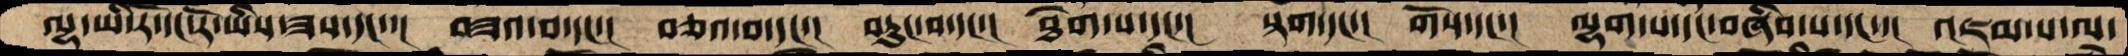ལྷ་ཡི་རོ་དང་རོ་ཡིས་ཟས་དང་་།  བཟའ་བ་དང་།  བཅའ་བ་དང་།  བཏུང་བ་དང་།  ཐེག་པ་དང་།  སྟག་དང་།  གོས་དང་།  ལྷག་པ་དང་བཞིབ་པ་དང་་།  འཇམ་པ་ལ་
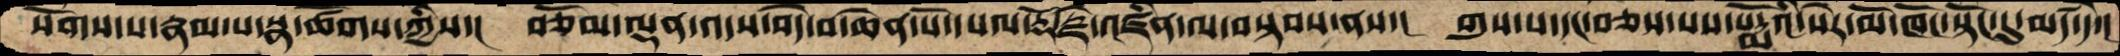སོགས་པ་རྣམ་པ་སྣ་ཚོགས་ཀྱིས་།  བཅོམ་ལྡན་འདས་བདེ་བ་ཆེན་པོ་དཔལ་རྡོ་རྗེ་འཛིན་ལ་བསྟབས་ནས་།  གུས་པ་དང་བཅས་པས་པདྨོའི་སེར་མོ་ཁོང་སྟོང་དུ་མཛད་དེ་།
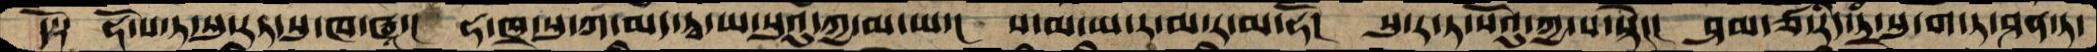དོ༑  ཧོ་ས་ཏ་སུ་རཏ་སུ་ཁ་ཝཱ་།  ཧ་ཁྲ་སུ་ཀ་མད་ཏྭ་ཡ་སུའུ་ཀྱ་མ་ཡ་།  ས་མ་ཡ་ར་མ་ར་མ་ཧོ།  པུ་ར་ཏ་སོའུ་ཀྱ་པ་སྟེ་།  ཤམ་ཙ་རིད་ཏྲཾ་སུ་ག་ཏ་ཤན་ཏ་
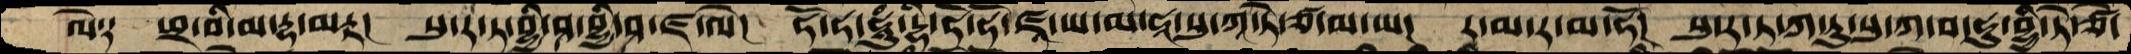ལེ༑  ཕྲ་བི་མ་དྷ་མཏྟ།  སུ་ར་ཏ་བྷྱི་ཤ་བྷྱི་ཤ་ཛ་ལེ།  ཧོ་ཧ་ཧཱུཾ་དྷི་ཧོ་ཧོ་ཛཱ་ཡ་མ་ཧཱ་སུ་ཀཱ་ཏེ་ཙ་མ་ཡ།  ར་མ་ར་མ་ཧོ།  སུ་ར་ཏ་ཀ་རུ་སུ་ཀ་བ་ཧུ་བྷྱི་ཏེ་ཙེ་
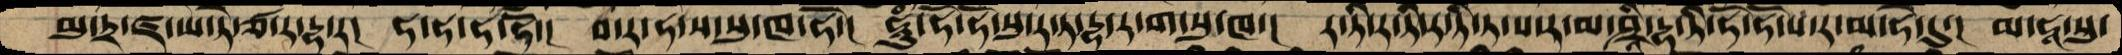མུ་ཏྲ་ཛ་ཡ་ཏེ་ཙ་ར་དྷ་ར།  ཧ་ཧ་ཧ་ཧོ་།  བ་ར་ཧ་ས་སུ་ཁ་ཧོ་།  ཧཱུཾ་ཧོ་ཧོ་སུ་ར་ཏ་དྷ་ར་ག་སུ་ཁ་།  ར་ཏི་ར་ཏི་ར་ཏི་ཏ་ས་ར་མ་ཤྲཱཱི་དྷ་ཏི་ཧོ་ཧོ་ས་ར་མ་ཧོ་དུ་།  མ་ཧཱ་སུ་
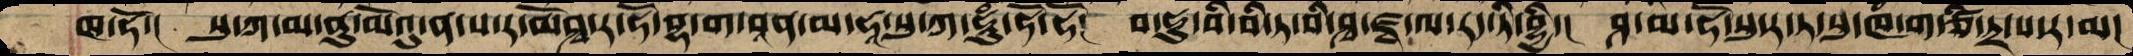ཁ་ཧོ་།  སུ་ཀ་མ་ནུ་མོའུ་ན་ས་ར་མོཤྭ་ར་ཧོ་བྷ་ག་བཱན་མ་ཧཱ་སུ་ཀ་ཧཱུཾ་ཧོ་ཧོ།  བ་ཧུ་བི་བི་ཏ་བི་ཤྭ་ཛྭ་ལ་རད་ཏི་བྷྱི་།  ཤ་མ་ཧོ་སུ་ར་ཏ་སུ་ཁཾ་ག་ཙི་ཏྲ་པ་ར་མ།
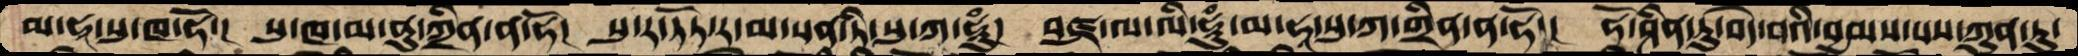མ་ཧཱ་སུ་ཁ་ཧོ་། སུ་ཁ་མ་ནུ་ཀྲིན་ན་ཧོ།  སུ་ར་ཏོཏ་ར་མ་སན་ཏི་སུ་ཀ་ཧཱུཾ།  བཛྲ་ལ་ལི་ཧཱུཾ་མ་ཧཱ་སུ་ཀ་གྲིན་ན་ཧོ་།  ཧོ་ཤིན་ཏུ་བདེ་བའི་བྱམས་པས་ཀུན་ཏུ་
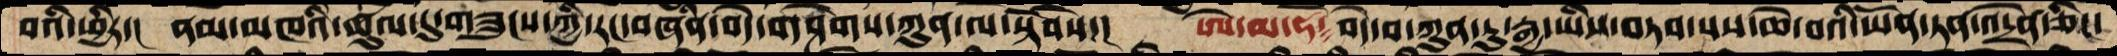བའི་ཕྱིར་།  ནམ་མཁའི་ཚུལ་དུ་གཟུངས་ཀྱི་རང་བཞིན་བདེ་གཤེགས་ཀུན་ལ་སྟོབསོ་།  ཨེ་མ་ཧོ༴ བདེ་བ་ཀུན་ཏུ་རྒྱ་ཡིས་བཏབ་པས་ཆེ་བའི་ཡོན་ཏན་འདྲེན་ཅིང་
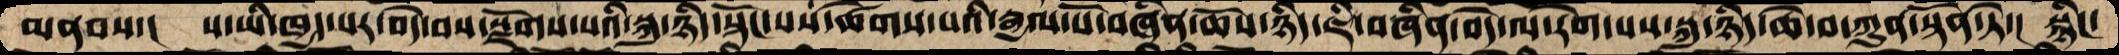མནབས་།  ས་ཡི་ཁྱད་པར་བདེ་བས་སྫོགས་པའི་སྐུ་ཉིད་སྟོང་པས་ཚོགས་པའི་རྒྱལ་པོ་བཞིན་ཆོས་ཉིད་ཇི་བཞིན་བདེ་ལ་རེག་པས་སྐུ་ཉིད་ཆེ་བ་ཀུན་སྟོན་ཏེ་།  སྙིང་
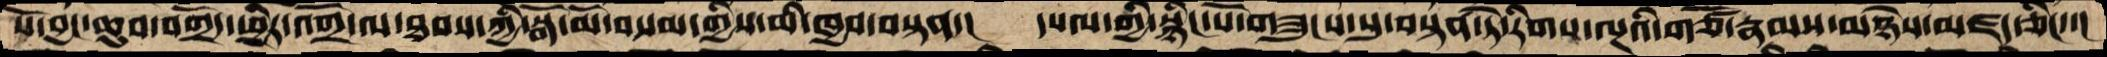པོ་བྱང་ཆུབ་བགྲོད་ཕྱིར་འགྲོ་ལ་ཐབས་ཀྱི་སྒོ་མོ་བསམ་གྱིས་མི་ཁྱབ་བསྟན་།   དཔལ་གྱི་སྙིང་པོ་གཟུགས་སུ་བསྟན་ཏེ་རིགས་ལྔའི་གཙོ་རྣམས་མཉེས་མཛད་ཅིང་་།
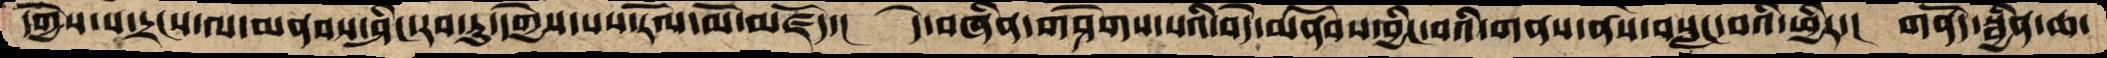དགྱེས་པ་དྲངས་ལ་མནབས་ཤིང་རབ་ཏུ་དགྱེས་པས་རོལ་མོ་མཛོད་།  དེ་བཞིན་གཤེགས་པའི་བདེ་མནོབས་བྱིང་བའི་གནས་ནས་བསླང་བའི་ཕྱིར་།  གནོད་སྦྱིན་ཆ་
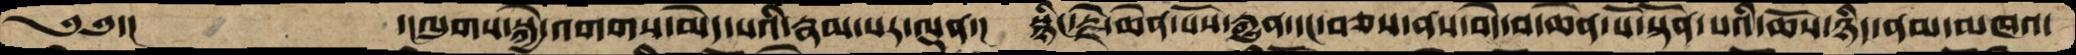༄༅་།        ་།ལུགས་སྐྱེ་འགགས་མརད་པའི་རྣམ་པར་ལྡན་།  སྙིང་རྗེ་ཆེན་པོས་རྒྱུན་དང་བཅས་ནས་བདེ་བ་ཆེན་པོ་སྟོན་པའི་ཆོས་ཉིད་ནམ་མཁའ་
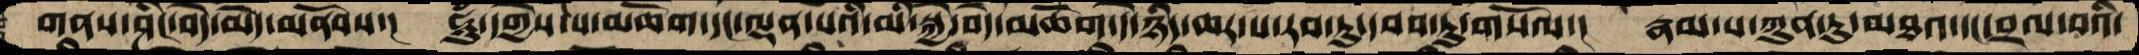གནས་ཤིང་བདེ་མེད་མནོབས་།   ཧཱུཾ་དགྱེས་པ་མཆོག་དང་ལྡན་པའི་མི་སྐྱེ་བདེ་མཆོག་དེ་ཉིད་ཆར་པ་རབ་ཏུ་དབབ་ཏུ་གསོལ་།  རྣམ་པ་ཀུན་ཏུ་མཐའ་དང་བྲལ་བའི་
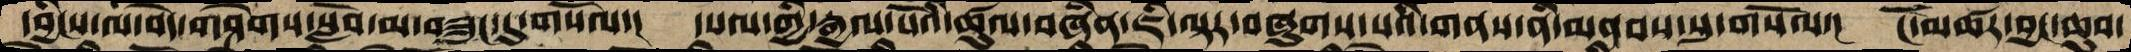དབྱིངས་ལ་བདེ་གཤེགས་སློབ་མ་བཟུང་དུ་གསོལ་།  དཔལ་གྱི་རྒྱལ་པོའི་ཚུལ་བཞིན་ཇི་ལྟར་བཞུགས་པའི་གནས་ནི་མནབས་སུ་གསོལ་།  ངོ་མཚར་བྱང་ཆུབ་
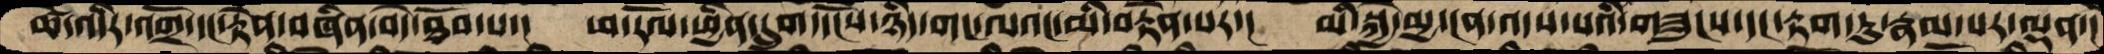ཚེ་འདིར་འགྲོ་དང་རྟེན་བཞིན་བདེ་ཐོབ་པ་།  ཕ་རོལ་ཕྱིན་དྲུག་དངོས་ཉིད་གང་ལའང་མི་བརྟེན་པར་།  མི་སྐྱེ་མྱ་ངན་འདས་པའི་གཟུངས་དང་རྟག་ཏུ་རྣམ་པར་ལྡན་།
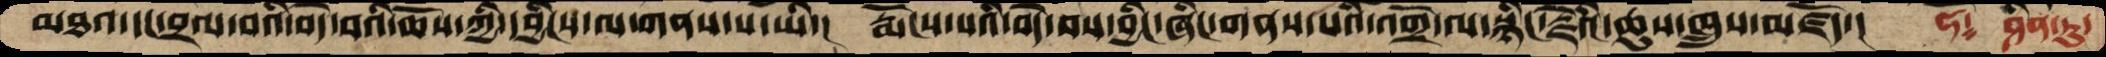མཐའ་དང་བྲལ་བའི་བདེ་བའི་ཆོས་ཀྱི་དབྱིངས་ལ་གནས་པ་ཡི་།  རྨོངས་པའི་བདེ་བས་བྱིང་ཞིང་གནས་པའི་འགྲོ་ལ་སྙིང་རྗེའི་ཆུས་ཁྲུས་མཛེད་།    ཧོ༴  ཤིན་ཏུ་
